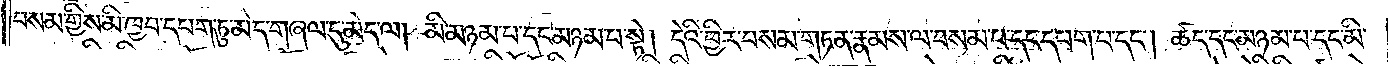བསམ་གྱིས་མི་ཁྱབ་དཔག་ཏུ་མེད་གཞལ་དུ་མེད་ལ། མི་མཉམ་པ་དང་མཉམ་པ་སྟེ། དེའི་ཕྱིར་བསམ་གཏན་རྣམས་ལ་བསམ་པ་དང་དཔག་པ་དང༌། ཚད་དང་མཉམ་པ་དང་མི་
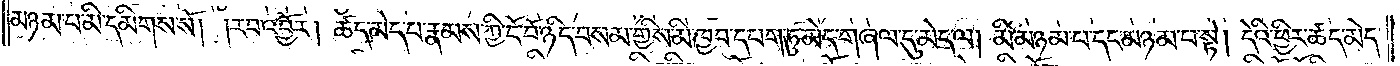མཉམ་པ་མི་དམིགས་སོ། །རབ་འབྱོར། ཚད་མེད་པ་རྣམས་ཀྱི་ངོ་བོ་ཉིད་བསམ་གྱིས་མི་ཁྱབ་དཔག་ཏུ་མེད་གཞལ་དུ་མེད་ལ། མི་མཉམ་པ་དང་མཉམ་པ་སྟེ། དེའི་ཕྱིར་ཚད་མེད་
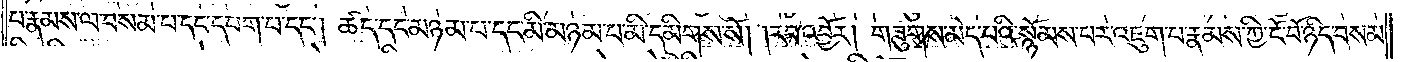པ་རྣམས་ལ་བསམ་པ་དང་དཔག་པ་དང༌། ཚད་དང་མཉམ་པ་དང་མི་མཉམ་པ་མི་དམིགས་སོ། །རབ་འབྱོར། གཟུགས་མེད་པའི་སྙོམས་པར་འཇུག་པ་རྣམས་ཀྱི་ངོ་བོ་ཉིད་བསམ་
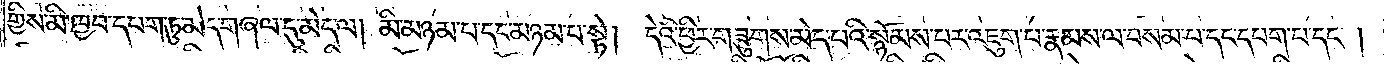གྱིས་མི་ཁྱབ་དཔག་ཏུ་མེད་གཞལ་དུ་མེད་ལ། མི་མཉམ་པ་དང་མཉམ་པ་སྟེ། དེའི་ཕྱིར་གཟུགས་མེད་པའི་སྙོམས་པར་འཇུག་པ་རྣམས་ལ་བསམ་པ་དང་དཔག་པ་དང༌།
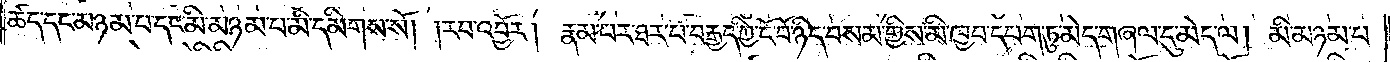ཚད་དང་མཉམ་པ་དང་མི་མཉམ་པ་མི་དམིགས་སོ། །རབ་འབྱོར། རྣམ་པར་ཐར་པ་བརྒྱད་ཀྱི་ངོ་བོ་ཉིད་བསམ་གྱིས་མི་ཁྱབ་དཔག་ཏུ་མེད་གཞལ་དུ་མེད་ལ། མི་མཉམ་པ་
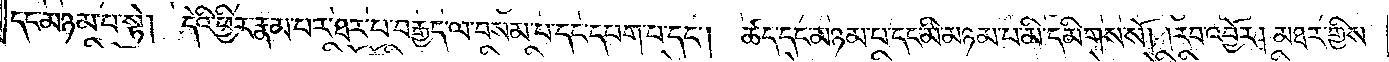དང་མཉམ་པ་སྟེ། དེའི་ཕྱིར་རྣམ་པར་ཐར་པ་བརྒྱད་ལ་བསམ་པ་དང་དཔག་པ་དང༌། ཚད་དང་མཉམ་པ་དང་མི་མཉམ་པ་མི་དམིགས་སོ། །རབ་འབྱོར། མཐར་གྱིས་
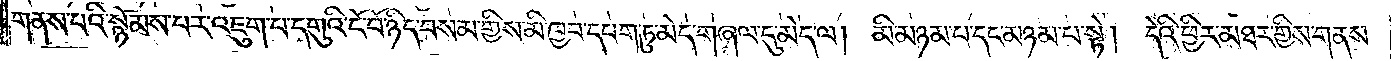གནས་པའི་སྙོམས་པར་འཇུག་པ་དགུའི་ངོ་བོ་ཉིད་བསམ་གྱིས་མི་ཁྱབ་དཔག་ཏུ་མེད་གཞལ་དུ་མེད་ལ། མི་མཉམ་པ་དང་མཉམ་པ་སྟེ། དེའི་ཕྱིར་མཐར་གྱིས་གནས་
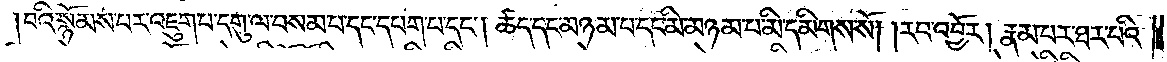པའི་སྙོམས་པར་འཇུག་པ་དགུ་ལ་བསམ་པ་དང་དཔག་པ་དང༌། ཚད་དང་མཉམ་པ་དང་མི་མཉམ་པ་མི་དམིགས་སོ། །རབ་འབྱོར། རྣམ་པར་ཐར་པའི་
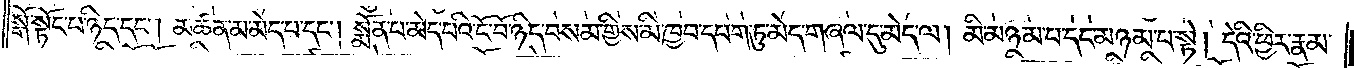སྒོ་སྟོང་པ་ཉིད་དང༌། མཚན་མ་མེད་པ་དང༌། སྨོན་པ་མེད་པའི་ངོ་བོ་ཉིད་བསམ་གྱིས་མི་ཁྱབ་དཔག་ཏུ་མེད་གཞལ་དུ་མེད་ལ། མི་མཉམ་པ་དང་མཉམ་པ་སྟེ། དེའི་ཕྱིར་རྣམ་
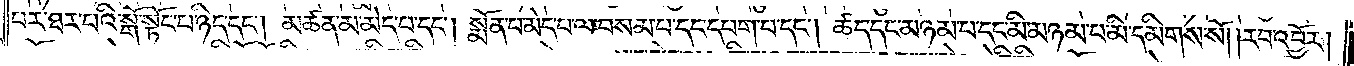པར་ཐར་པའི་སྒོ་སྟོང་པ་ཉིད་དང༌། མཚན་མ་མེད་པ་དང༌། སྨོན་པ་མེད་པ་ལ་བསམ་པ་དང་དཔག་པ་དང༌། ཚད་དང་མཉམ་པ་དང་མི་མཉམ་པ་མི་དམིགས་སོ། །རབ་འབྱོར།
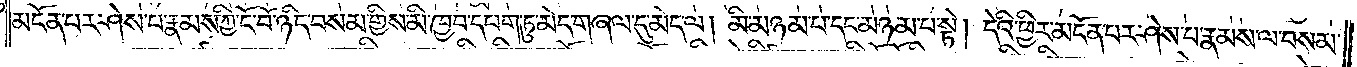མངོན་པར་ཤེས་པ་རྣམས་ཀྱི་ངོ་བོ་ཉིད་བསམ་གྱིས་མི་ཁྱབ་དཔག་ཏུ་མེད་གཞལ་དུ་མེད་ལ། མི་མཉམ་པ་དང་མཉམ་པ་སྟེ། དེའི་ཕྱིར་མངོན་པར་ཤེས་པ་རྣམས་ལ་བསམ་
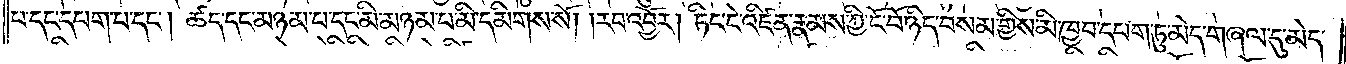པ་དང་དཔག་པ་དང༌། ཚད་དང་མཉམ་པ་དང་མི་མཉམ་པ་མི་དམིགས་སོ། །རབ་འབྱོར། ཏིང་ངེ་འཛིན་རྣམས་ཀྱི་ངོ་བོ་ཉིད་བསམ་གྱིས་མི་ཁྱབ་དཔག་ཏུ་མེད་གཞལ་དུ་མེད་
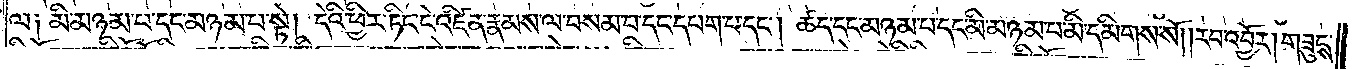ལ༑ མི་མཉམ་པ་དང་མཉམ་པ་སྟེ། དེའི་ཕྱིར་ཏིང་ངེ་འཛིན་རྣམས་ལ་བསམ་པ་དང་དཔག་པ་དང༌། ཚད་དང་མཉམ་པ་དང་མི་མཉམ་པ་མི་དམིགས་སོ། །རབ་འབྱོར། གཟུངས་
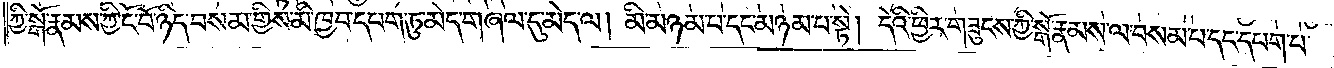ཀྱི་སྒོ་རྣམས་ཀྱི་ངོ་བོ་ཉིད་བསམ་གྱིས་མི་ཁྱབ་དཔག་ཏུ་མེད་གཞལ་དུ་མེད་ལ། མི་མཉམ་པ་དང་མཉམ་པ་སྟེ། དེའི་ཕྱིར་གཟུངས་ཀྱི་སྒོ་རྣམས་ལ་བསམ་པ་དང་དཔག་པ་
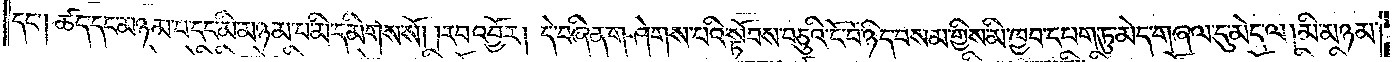དང༌། ཚད་དང་མཉམ་པ་དང་མི་མཉམ་པ་མི་དམིགས་སོ། །རབ་འབྱོར། དེ་བཞིན་གཤེགས་པའི་སྟོབས་བཅུའི་ངོ་བོ་ཉིད་བསམ་གྱིས་མི་ཁྱབ་དཔག་ཏུ་མེད་གཞལ་དུ་མེད་ལ། མི་མཉམ་
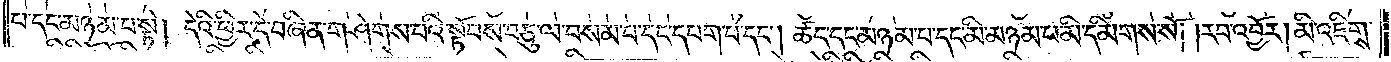པ་དང་མཉམ་པ་སྟེ། དེའི་ཕྱིར་དེ་བཞིན་གཤེགས་པའི་སྟོབས་བཅུ་ལ་བསམ་པ་དང་དཔག་པ་དང༌། ཚད་དང་མཉམ་པ་དང་མི་མཉམ་པ་མི་དམིགས་སོ། །རབ་འབྱོར། མི་འཇིགས་
